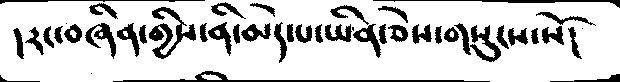།རང་བཞིན་གྱིས་ནི་མེད་པ་ཡིན་ཅེས་གསུངས་སོ།
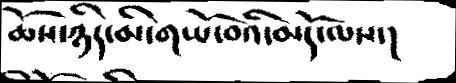ཆོས་ཉིད་མི་གཡོ་བའི་མདོ་ལས་།
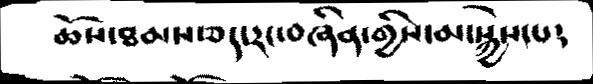ཆོས་ཐམས་ཅད་རང་བཞིན་གྱིས་མ་སྐྱེས་པ༴
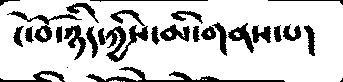ངོ་བོ་ཉིད་ཀྱིས་མི་གནས་པ།
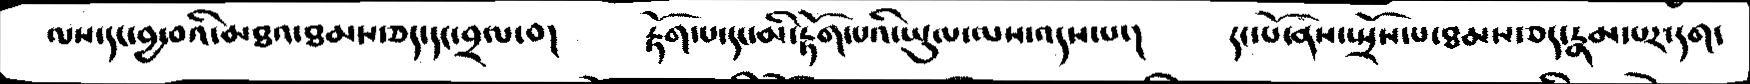ལས་དང་བྱ་བའི་མཐའ་ཐམས་ཅད་དང་བྲལ་བ།   རྟོག་པ་དང་མི་རྟོག་པའི་ཡུལ་ལས་འདས་པ་།   དང་པོ་ནས་སྤྲོས་པ་ཐམས་ཅད་རྣམ་པར་དག་
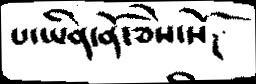པ་ཡིན་ནོ་ཅེས་སོ།
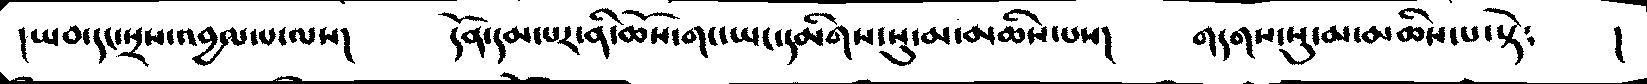།ཡབ་དང་སྲས་འབྱལ་པ་ལས།   དོན་དམ་པར་ནི་ཆོས་གང་ཡང་དམིགས་སུ་མ་མཆིས་པས།   གདགས་སུ་མ་མཆིས་པ་སྟེ༴   །
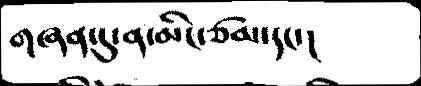གཞན་དུ་ན་མིང་ཙམ་དང་།
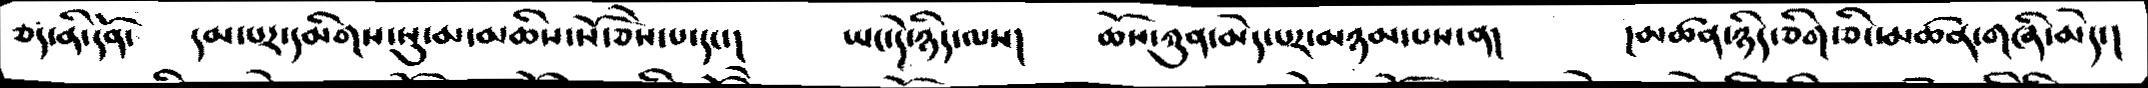ཅད་ནི་དོན་   དམ་པར་དམིགས་སུ་མ་མཆིས་སོ་ཅེས་པ་དང་།   ཡང་དེ་ཉིད་ལས།   ཆོས་ཀུན་མེད་པར་མཉམ་པས་ན།   །མཚན་ཉིད་ཅིག་ཅིང་མཚན་གཞི་མེད་།
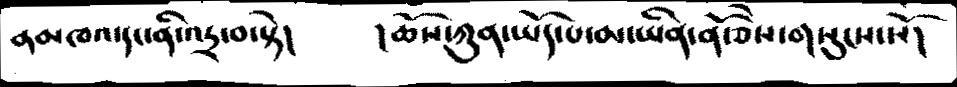ནམཁའ་དང་ནི་འདྲ་བ་སྟེ།   །ཆོས་ཀུན་ཡོད་པ་མ་ཡིན་ནོ་ཅེས་གསུངས་སོ།
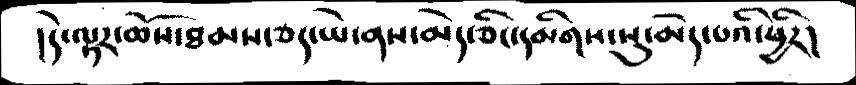།དེ་ལྟར་ཆོས་ཐམས་ཅད་ཡེ་ནས་མེད་ཅིང་དམིགས་སུ་མེད་པའི་ཕྱིར།
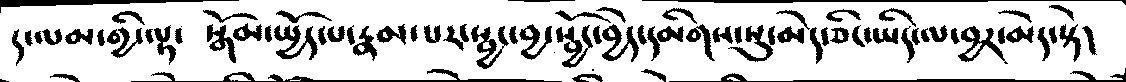ད་ལམ་གྱི་ལྟ་  སྒོམ་སྤྱོད་པ་རྣམ་པར་སྦྱང་བྱ་སྦྱོང་བྱེད་དམིགས་སུ་མེད་ཅིང་ཡིད་ལ་བྱར་མེད་སྟེ།
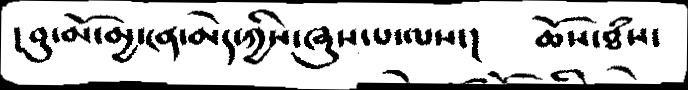།བུ་མོ་མྱ་ངན་མེད་ཀྱིས་ཞུས་པ་ལས་།   ཆོས་ཐཾས་
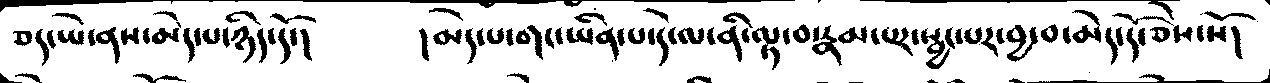ཅད་ཡེ་ནས་མེད་པ་ཉིད་དོ་།    །མེད་པ་གང་ཡིན་པ་དེ་ལ་ནི་ལྟ་བ་རྣམ་པར་སྦྱང་པར་བྱ་བ་མེད་དོ་ཅེས་སོ།
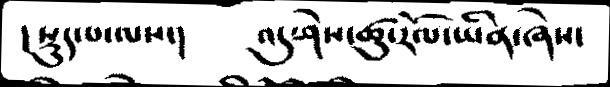།སྡུད་པ་ལས་།   འདུ་ཤེས་ཚུ་རོལ་ཡིན་ཞེས་
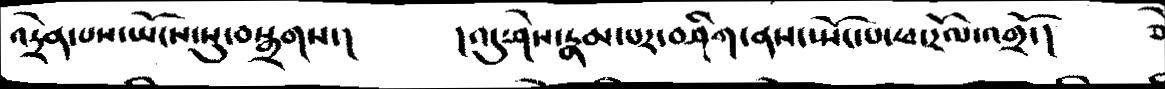འདྲེན་པས་ཡོངས་སུ་བསྒྲགས་།   །འདུ་ཤེས་རྣམ་པར་བཤིག་ནས་སྤོང་པ་ཕ་རོལ་འགྲོ་།  ཅེ
